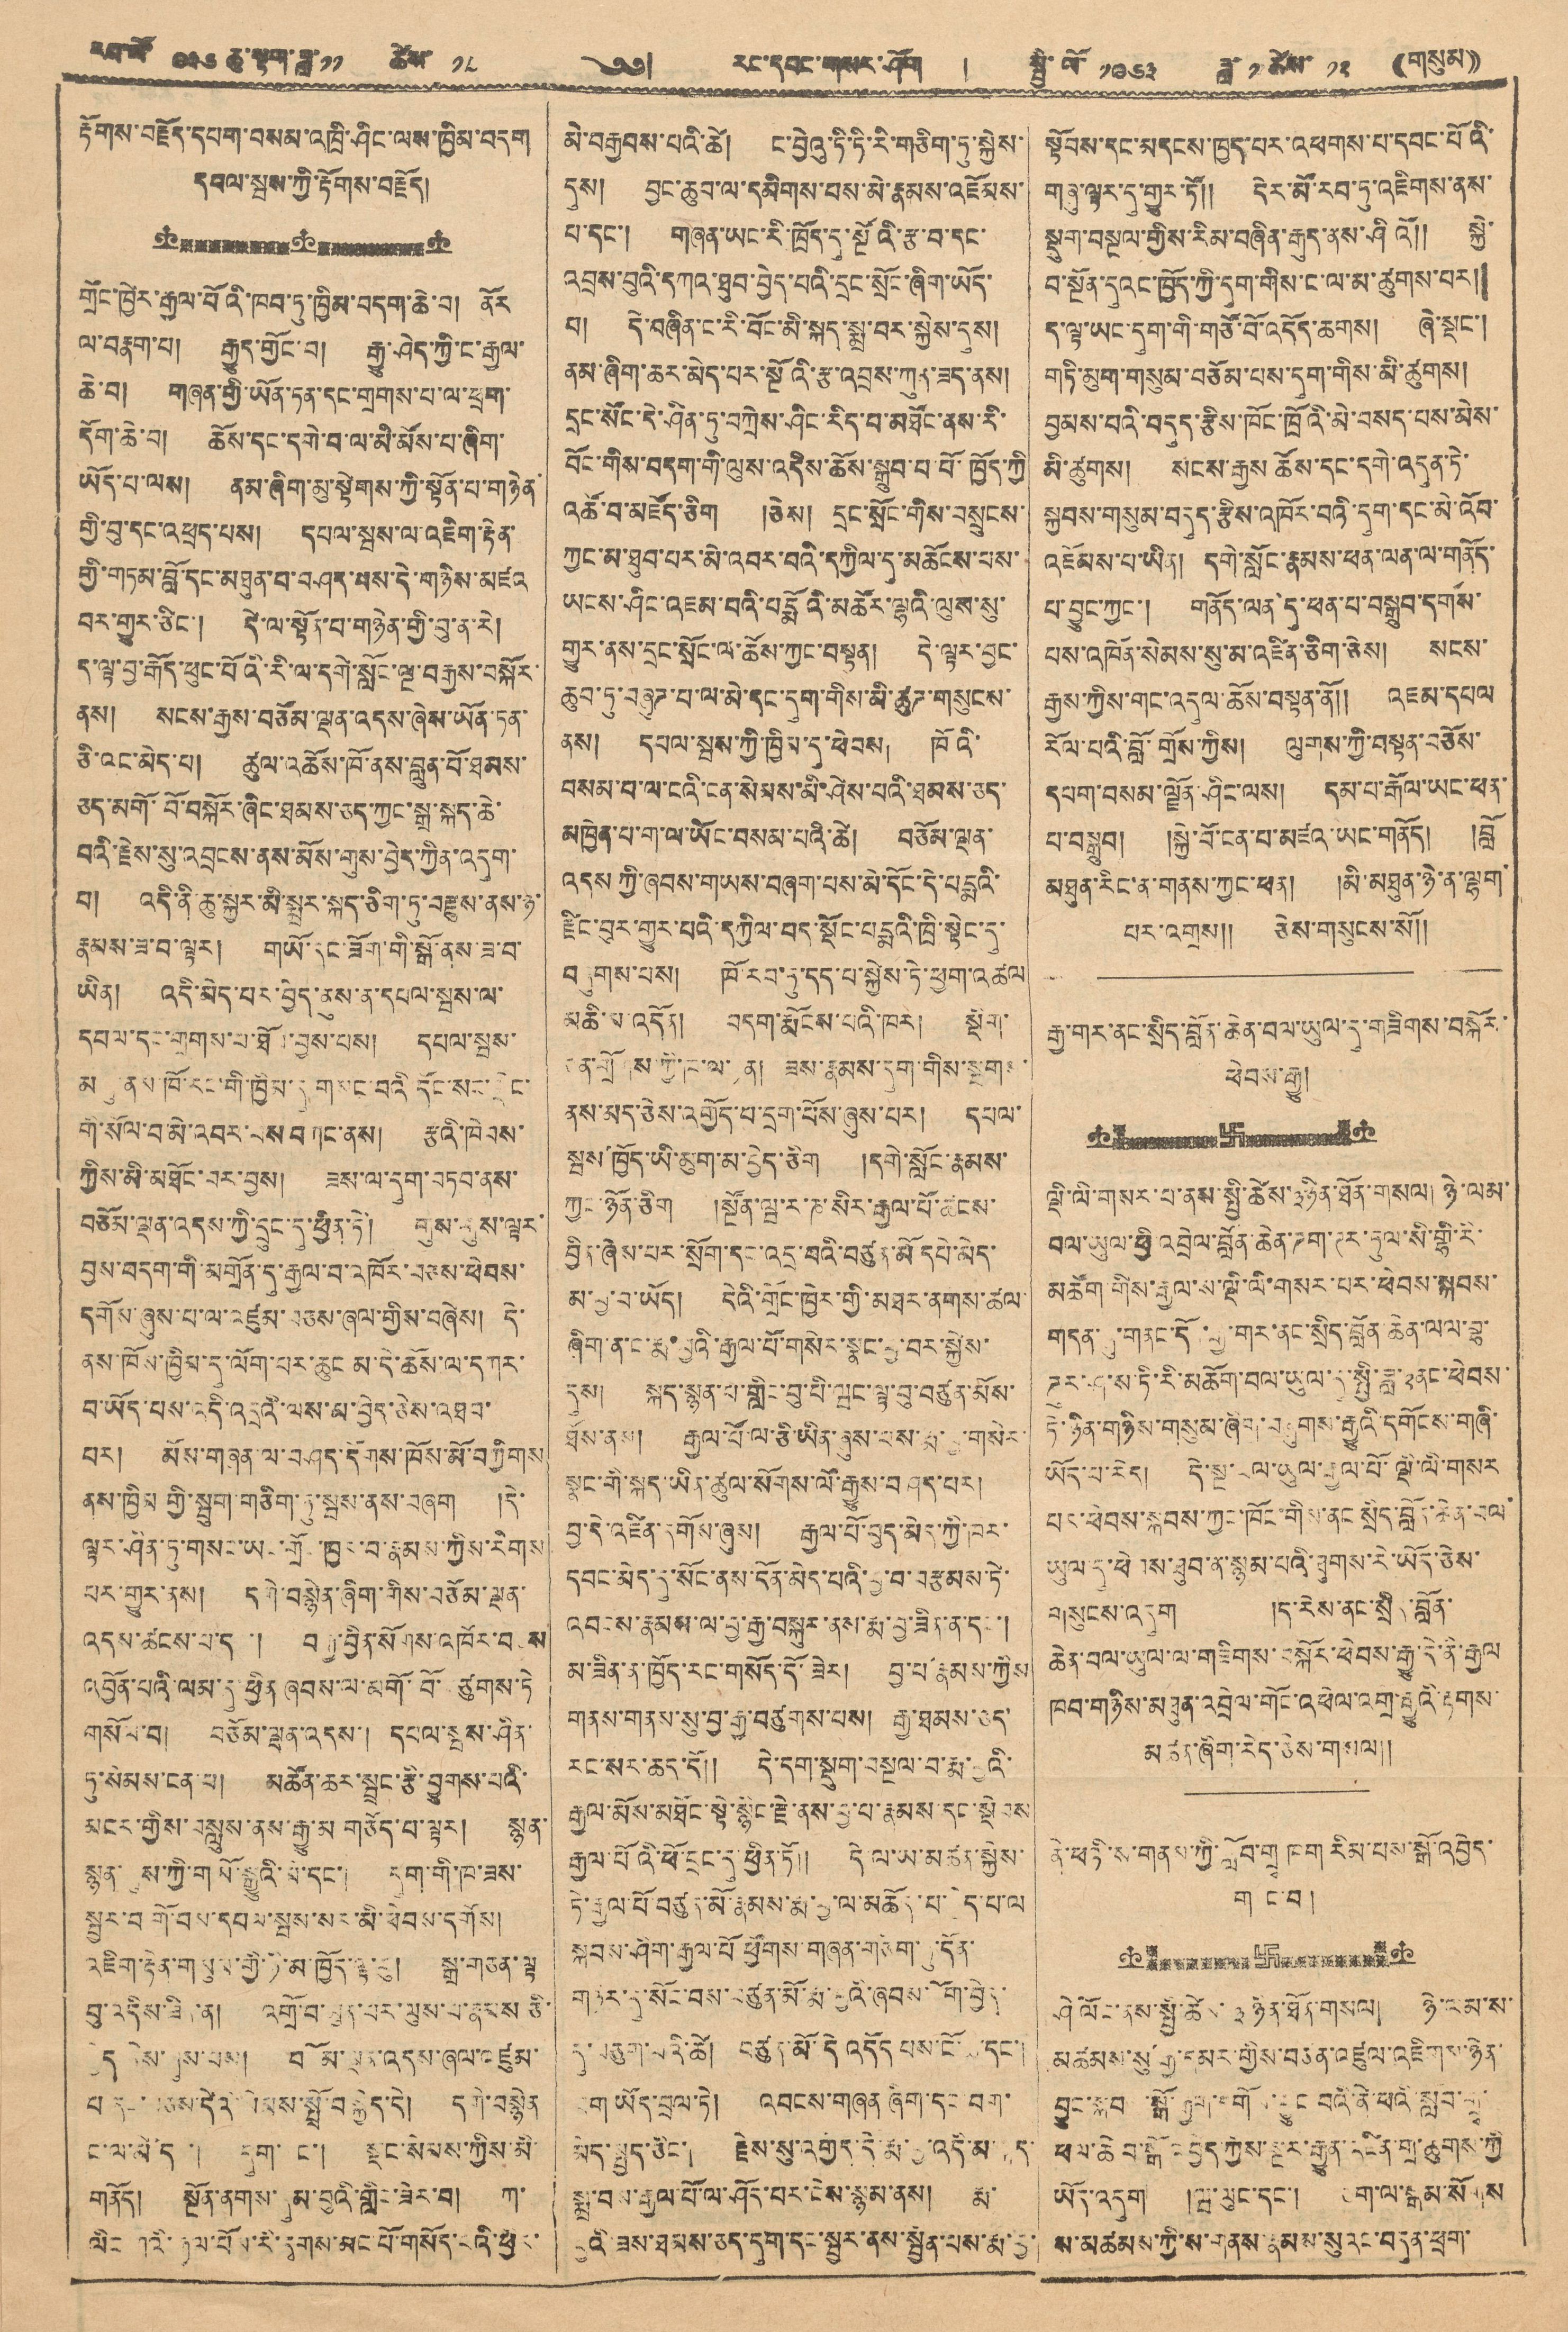རབ་ལོ་ ༩༣༦ ཆུ་སྟག་ཟླ་༡༡ ཚེས་ ༡༨ ༄༅། རང་དབང་གསར་ཤོག ། སྤྱི་ལོ་ ༡༩༦༣ ཟླ་ ༡ ཚེས་ ༡༢ ((གསུམ))
རྟོགས་བརྗོད་དཔག་བསམ་འཁྲི་ཤིང་ལས་ཁྱིམ་བདག
དབལ་སྤས་ཀྱི་རྟོགས་བརྗོད།
གྲོང་ཁྱེར་རྒྱལ་པོའི་ཁབ་ཏུ་ཁྱིམ་བདག་ཆེ་བ། ནོར
ལ་བརྣག་པ། རྒྱུད་གྱོང་བ། རྒྱུ་ཤེད་ཀྱི་ང་རྒྱལ་
ཆེ་བ། གཞན་གྱི་ཡོན་ཏན་དང་གྲགས་པ་ལ་ཕྲག་
དོག་ཆེ་བ། ཆོས་དང་དགེ་བ་ལ་མི་མོས་པ་ཞིག་
ཡོད་པ་ལས། ནམ་ཞིག་མུ་སྟེགས་ཀྱི་སྟོན་པ་གཉེན་
གྱི་བུ་དང་འཕྲད་པས། དཔལ་སྤས་ལ་འཇིག་རྟེན་
གྱི་གཏམ་བློ་དང་མཐུན་པ་བཤད་པས་དེ་གཉིས་མཛའ
བར་གྱུར་ཅིང་། དེ་ལ་སྟོད་པ་གཉེན་གྱི་བུ་ན་རེ།
ད་ལྟ་བྱ་རྒོད་ཕུང་པོའི་རི་ལ་དགེ་སློང་ལྔ་བརྒྱས་བསྐོར་
ནས། སངས་རྒྱས་བཅོམ་ལྡན་འདས་ཞེས་ཡོན་ཏན་
ཅི་འང་མེད་པ། ཚུལ་འཆོས་ཁོ་ནས་བླུན་པོ་ཐམས་
ཅད་མགོ་བོ་བསྐོར་ཞིང་ཐམས་ཅད་ཀྱང་སྒྲ་སྐད་ཆེ་
བའི་རྗེས་སུ་འབྲངས་ནས་མོས་གུས་བྱེད་ཀྱིན་འདུག་
པ། འདི་ནི་ཆུ་སྐྱར་མི་སྨྲར་སྐད་ཅིག་ཏུ་བརྫུས་ནས་ཉ་
རྣམས་ཟ་བ་ལྟར། གཡོ་དང་ཟོག་གི་སྒོ་ནས་ཟ་བ་
ཡིན། འདི་མིན་པར་བྱེད་ནུས་ན་དཔལ་སྦས་ལ་
དཔལ་དང་གྲགས་པ་ཐོབ་བྱས་པས། དཔལ་སྦས་
བཏུས་ནས་ཁོ་རང་གི་ཁྱིམ་དུ་གསང་བའི་དོང་སང་སྡེང
གི་སོལ་བ་མི་འབར་བས བཀང་ནས། རྩའི་ཁེབས་
ཀྱིས་མི་མཐོང་བར་བྱས། ཟས་ལ་དུག་བཏབ་ནས་
བཅོམ་ལྡན་འདས་ཀྱི་དྲུང་དུ་ཕྱིན་ཏེ། གུས་གུས་ལྟར་
བྱས་བདག་གི་མགྲོན་དུ་རྒྱལ་བ་འཁོར་བཅས་ཕེབས་
དགོས་ཞུས་པ་ལ་འཛུམ་བཅས་ཞལ་གྱིས་བཞེས། དེ་
ནས་ཁོས་ཁྱིམ་དུ་ལོག་པར་ཆུང་མ་དེ་ཆོས་ལ་དཀར་
བ་ཡོད་པས་འདི་འདྲའི་ལས་མ་བྱེད་ཅེས་འཐབ་
བར། མོས་གཞན་ལ་བཤད་དོགས་ཁོས་མོ་བཀྱིགས
ནས་ཁྱིམ གྱི་སྦུག་གཅིག་ཏུ་སྦས་ནས་བཞག །དེ་
ལྟར་ཤིན་ཏུ་གསང་ཡང་གྲོང་ཁྱེར་བ་རྣམས་ཀྱིས་རིགས
པར་གྱུར་ནས། དགེ་བསྙེན་ཞིག་གིས་བཅོམ་ལྡན་
འདས་ཚངས་པ་དང་། བརྒྱ་བྱིན་སོགས་འཁོར་བཅས
འབྱོན་པའི་ལམ་དུ་ཕྱིན་ཞབས་ལ་མགོ་བོ་ ཙུགས་ཏེ
གསོལ་བ། བཅོམ་ལྡན་འདས་། དཔལ་སྦས་ཤིན་
ཏུ་སེམས་ངན་པ། མཚོན་ཆར་སྦྲང་རྩི་བྱུགས་པའི་
མངར་གྱིས་བསླུས་ནས་རྒྱུ་མ གཅོད་པ་ལྟར། སྙན་
སྙན་དུས་ཀྱི་གཡོ་སྒྱུའི་མི་དང་། དུག་གི་ཁ་ཟས་
སྦྱར་བགོ་བས་དཔལ་སྦས་སར་མི་ཕེབས་དགོས།
འཇིག་རྟེན་གསུམ་གྱི་ཉི་མ་ཁྱོད་ལྟ་བུ། སྒྲ་གཅན་ལྟ
བུ་འདིས་ཟིན་ན། འགྲོ་བ་མུན་པར་ལུས་པ་རྣམས ཅི་
བྱེད་ངེས་ཞུས་པས། བཅོམ་ལྡན་འདས་ཞལ་འཛུམ་
པ་དང་བཅས་དེའི་སེམས་སྤྲོ་བསྐྱེད་དེ། དགེ་བསྙེན
ང་ལ་མེ་ད ་། དུག་ ང་། སྡང་སེམས་ཀྱིས་མི་
གནོད། སྔོན་ནགས་ཞུམ་བུའི་གླིང་ཟེར་བ། ཀ་
ལིང་ཀའི་རྒྱལ་པོས་རི་དྭགས་མང་པོ་གསོད་ངའི་ཕྱིར་
མེ་བརྒྱགས་པའི་ཚེ། ང་བྱེའུ་ཏི་ཏི་རི་གཅིག་ཏུ་སྐྱེས་
དུས། བྱང་ཆུབ་ལ་དམིགས་པས་མི་རྣམས་འཛོམས་
པ་དང་། གཞན་ཡང་རི་ཁྲོད་དུ་སྔོའི་རྩ་བ་དང་
འབྲས་བུའི་དཀའ་ཐུབ་བྱེད་པའི་དྲང་སྲོང་ཞིག་ཡོད་
པ། དེ་བཞིན་ང་རི་བོང་མི་སྐད་སྨྲ་བར་སྐྱེས་དུས།
ནམ་ཞིག་ཆར་མེད་པར་སྔོའི་རྩ་འབྲས་ཀུན་ཟད་ནས།
དྲང་སོང་དེ་ཤིན་ཏུ་བཀྲེས་ཤིང་རིད་བ་མཐོང་ནས་རི་
བོང་གིས་བདག་གི་ལུས་འདིས་ཆོས་སྒྲུབ་པ་པོ་ཁྱོད་ཀྱི
འཚོ་བ་མཛོད་ཅིག །ཅེས། དྲང་སྲོང་གིས་བསྲུངས་
ཀྱང་མ་ཐུབ་པར་མེ་འབར་བའི་དཀྱིལ་དུ་མཆོངས་པས
ཡངས་ཤིང་འཇམ་པའི་པདྨོའི་མཚོར་ལྷའི་ལུས་སུ་
གྱུར་ནས་དྲང་སྲོང་ལ་ཆོས་ཀྱང་བསྟན། དེ་ལྟར་བྱང་
ཆུབ་ཏུ་བཞུཊ་པ་ལ་མེ་དང་དུག་གིས་མི་ཚུཊ་གསུངས་
ནས། དཔལ་སྦས་ཀྱི་ཁྱིམ་དུ་ཕེབས། ཁོའི་
བསམ་པ་ལ་ངའི་ངན་སེམས་མི་ཤེས་པའི་ཐམས་ཅད་
མཁྱེན་པ་ག་ལ་ཡོང་བསམ་པའི་ཚེ། བཅོམ་ལྡན་
འདས ཀྱི་ཞབས་གཡས་བཞག་པས་མེ་དོང་དེ་པདྨའི་
རྫིང་བུར་གྱུར་པའི་དཀྱིལ་པད་སྡོང་པདྨའི་ཁྲི་སྟེང་དུ་
བཞུགས་པས། ཁོ་རབ་ཏུ་དད་པ་སྐྱེས་ཏེ་ཕྱག་འཚལ
མཆི་མ་འདོན། བདག་རྨོངས་པའི་ཁར། སྡིག་
ངན་གྲོགས་ཀྱི་ཁ་ལ་ཉན། ཟས་རྣམས་དུག་གིས་སྔགས་
ནས་མེད་ཅེས་འགྱོད་པ་དྲག་པོས་ཞུས་པར། དཔལ་
སྦས་ཁྱོད་ཡི་མུག་མ་བྱེད་ཅིག །དགེ་སློང་རྣམས་
ཀྱང་ཉོན་ཅིག །སྔོན་ཝ་ར་ཎ་སིར་རྒྱལ་པོ་ཚངས་
བྱིན་ཞེས་པར་སྲོག་དང་འདྲ་བའི་བཙུན་མོ་དཔེ་མེད་
མ་བྱ་བ་ཡོད། དེའི་གྲོང་ཁྱེར་གྱི་མཐར་ནགས་ཚལ་
ཞིག་ན་ང་རྨ་བྱའི་རྒྱལ་པོ་གསེར་སྣང་བྱ་བར་སྐྱེས་
དུས། སྐད་སྙན་པ་གླིང་བུ་པི་ཝང་ལྟ་བུ་བཙུན་མོས་
ཐོས་ནས། རྒྱལ་པོ་ལ་ཅི་ཡིན་ཞུས་པས་རྨ་བྱ་གསེར་
སྣང་གི་སྐད་ཡིན་ཚུལ་སོགས་ལོ་རྒྱུས་བཤད་པར།
བྱ་དེ་འཛིན་དགོས་ཞུས། རྒྱལ་པོ་བུད་མེད་ཀྱི་ཁོར་
དབང་མེད་དུ་སོང་ནས་དོན་མེད་པའི་བྱ་བ་བརྩམས་ཏེ་
འབངས་རྣམས་ལ་བྱ་རྒྱ་བསྐུར་ནས་རྨ་བྱ་ཟིན་ན་དང་།
མ་ཟིན་ན་ཁྱོད་རང་གསོད་དོ་ཟེར། བྱ་པ་རྣམས་ཀྱིས
གནས་གནས་སུ་བྱ་རྒྱ་བཙུགས་པས། རྒྱ་ཐམས་ཅད་
རང་སར་ཆད་དོ།། དེ་དག་སྡུག་བསྔལ་བ་རྨ་བྱའི་
རྒྱལ་མོས་མཐོང་སྟེ་སྙིང་རྗེ་ནས་བྱ་བ་རྣམས་དང་སྡེབས
རྒྱལ་པོའི་ཕོ་བྲང་དུ་ཕྱིན་ཏོ།། དེ་ལ་ཡ་མཚན་སྐྱེས་
ཏེ་རྒྱལ་པོ་བཙུན་མོ་རྣམས་རྨ་བྱ་ལ་མཆོད་པ་བྱེད་པ་ལ
སྐབས་ཤིག་རྒྱལ་པོ་ཕྱོགས་གཞན་གཅིག་ཏུ་དོན་
གཉེར་དུ་སོང་བས་བཙུན་མོ་རྨ་བྱའི་ཞབས་ཆོག་བྱེད་
དུ་བཅུག་པས་ཚེ། བཙུན་མོ་དེ་འདོད་པས་ངོ་ཚ་དང་།
ཟག ཡོད་བྲལ་ཏེ། འབངས་གཞན ཞིག་དང་བག་
མེད་སྤྱད་ཅིང་། རྗེས་སུ་འགྱོད་དེ་རྨ་བྱ་འདི་མ་སྐད་
སྨྲ་བས་རྒྱལ་པོ་ལ་ཤོད་པར་ངེས་སྙམ་ནས། རྨ་
བྱའི་ཟས་ཐམས་ཅད་དུག་དང་སྦྱར་ནས་སྦྱིན་པས་རྨ་བྱ་
སྟོབས་དང་མདངས་ཁྱད་པར་འཕགས་པ་དབང་པོའི་
གཞུ་ལྟར་དུ་གྱུར་ཏོ།། དེར་མོ་རབ་ཏུ་འཇིགས་ནས་
སྡུག་བསྔལ་གྱིས་རིམ་བཞིན་རྒུད་ནས་ཤིའོ།། སྐྱེ
བ་སྔོན་དུའང་ཁྱོད་ཀྱི་དུག་གིས་ང་ལ་མ་ཚུགས་པར།
ད་ལྟ་ཡང་དུག་གི་གཙོ་བོ་འདོད་ཆགས། ཞེ་སྡང་།
གཏི་མུག་གསུམ་བཅོམ་པས་དུག་གིས་མི་ཚུགས།
བྱམས་པའི་བདུད་རྩིས་ཁོང་ཁྲོའི་མེ་བསད་པས་མེས་
མི་ཚུགས། སངས་རྒྱས ཆོས་དང་དགེ་འདུན་ཏེ་
སྐྱབས་གསུམ་བདུད་རྩིས་འཁོར་བའི་དུག་དང་མི་འོབ་
འཇོམས་པ་ཡིན། དགེ་སློང་རྣམས་ཕན་ལན་ལ་གནོད་
པ་བྱུང་ཀྱང་། གནོད་ལན་དུ་ཕན་པ་བསྒྲུབ་དགོས་
པས་འཁོན་སེམས་སུ་མ་འཛིན་ཅིག་ཅེས། སངས་
རྒྱས་ཀྱིས་གང་འདུལ་ཆོས་བསྟན་ནོ།། འཇམ་དཔལ
རོལ་པའི་བློ་གྲོས་ཀྱིས། ལུགས་ཀྱི་བསྟན་བཅོས་
དཔག་བསམ་ལྗོན་ཤིང་ལས། དམ་པ་རྒོལ་ཡང་ཕན་
པ་བསྒྲུབ། །སྐྱེ་བོ་ངན་པ་མཛའ་ཡང་གནོད། །བློ
མཐུན་རིང་ན་གནས་ཀྱང་ཕན། །མི་མཐུན་ཉེ་ན་ལྷག་
པར་འགྲས།། ཅེས་གསུངས་སོ།།
རྒྱ་གར་ནང་སྲིད་བློན་ཆེན་བལ་ཡུལ་དུ་གཟིགས་བསྐོར་
ཕེབས་རྒྱུ།
ལྡི་ལི་གསར་པ་ནས་སྤྱི་ཚེས་༣ཉིན་ཐོན་གསལ། ཉེ་ལམ་
བལ་ཡུལ་ཕྱི་འབྲེལ་བློན་ཆེན་ཌག་ཊར་ཏུལ་སི་གྷི་རི་
མཚོག་གིས་རྒྱལ་ས་ལྡི་ལི་གསར་པར་ཕེབས་སྐབས་
གདན་ཞུ་གནང་དོན་རྒྱ་གར་ནང་སྲིད་བློན་ཆེན་ལལ་བྷ་
ཌུར་ཤ་ས་ཏི་རི་མཆོག་བལ་ཡུལ་དུ་སྤྱི་ཟླ་༢ནང་ཕེབས་
ཏེ་ཉིན་གཉིས་གསུམ་ཞིག་བཞུགས་རྒྱུའི་དགོངས་གཞི་
ཡོད་པ་རེད། དེ་སྔ་བལ་ཡུལ་རྒྱལ་པོ་ལྡི་ལི་གསར
པར་ཕེབས་སྐབས་ཀྱང་ཁོང་གིས་ནང སྲིད་བློན་ཆེན་བལ་
ཡུལ་དུ་ཕེབས་ཐུབ་ན་སྙམ་པའི་ཐུགས་རེ་ཡོད་ཅེས
གསུངས་འདུག །ད་རེས་ནང་སྲིད་བློན་
ཆེན་བལ་ཡུལ་ལ་གཟིགས་བསྐོར་ཕེབས་རྒྱུ་དེ་ནི་རྒྱལ
ཁབ་གཉིས་མཐུན་འབྲེལ་གོང་འཕེལ་འགྲ་རྒྱུའི་རྟགས་
མཚན་ཞིག་རེད་ཅེས་གསལ།།
ནེ་ཕའི་ས་གནས་ཀྱི་སློབ་གྲྭ ཁག རིམ་པས་སྒོ་འབྱེད་
ག ང་བ།
ཤེ ལོང་ནས་སྤྱི་ཚེས་ ༣ ཉིན་ཐོན་གསལ། ཉེ་ལམ་ས་
མཚམས་སུ་རྒྱ་དམར་གྱིས་བཙན་འཛུལ་འཇིགས་ཉེན་
བྱུང་སྐབས་སྒོ་རྒྱག་དགོས་བྱུང་བའི་ནེ་ཕེའི་སློབ་གྲྭ་
ཕལ་ཆེ བ་སྒོ འབྱེད་ཀྱིས་སྔར་རྒྱུན་འཛིན་གྲ་ཚུགས་ཀྱི
ཡོད་འདུག །ཝ་ལུང་དང་། ཅག་ལ་སྒམ་སོགས
ས་མཚམས་ཀྱི་ས་གནས་རྣམས་སུའང་བདུན་ཕྲག་
